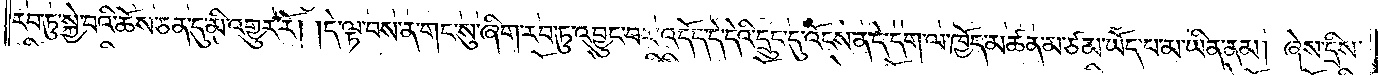རབ་ཏུ་སྐྱེ་བའི་ཆོས་ཅན་དུ་མི་འགྱུར་རོ། །དེ་ལྟ་བས་ན་གང་སུ་ཞིག་རབ་ཏུ་འབྱུང་བར་འདོད་དེ་དེའི་དྲུང་དུ་འོངས་ན་དེ་དག་ལ་ཁྱོད་མཚན་མ་ཙམ་ཡོད་པ་མ་ཡིན་ནམ། ཞེས་དྲིས་
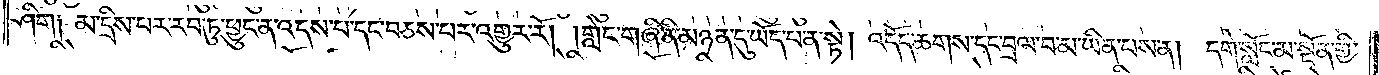ཤིག །མ་དྲིས་པར་རབ་ཏུ་ཕྱུང་ན་འདས་པ་དང་བཅས་པར་འགྱུར་རོ། །གླེང་གཞི་ནི་མཉན་དུ་ཡོད་པ་ན་སྟེ། འདོད་ཆགས་དང་བྲལ་བ་མ་ཡིན་པས་ན། དགེ་སློང་མ་སྔོན་གྱི་
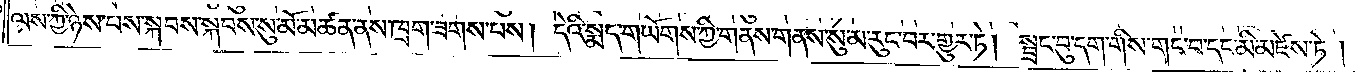ལས་ཀྱི་ཉེས་པས་སྐབས་སྐབས་སུ་མོ་མཚན་ནས་ཁྲག་ཟགས་པས། དེའི་སྨད་གཡོགས་ཀྱི་གནས་གནས་སུ་མ་རུང་བར་གྱུར་ཏེ། སྦྲང་བུ་དག་གིས་གང་བ་དང་མི་མཛེས་ཏེ།
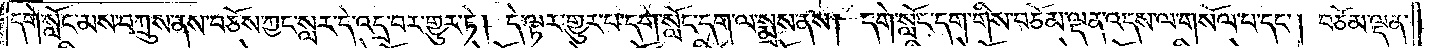དགེ་སློང་མས་བཀྲུས་ནས་བཅོས་ཀྱང་སླར་དེ་འདྲ་བར་གྱུར་ཏེ། དེ་ལྟར་གྱུར་པ་དགེ་སློང་དག་ལ་སྨྲས་ནས། དགེ་སློང་དག་གིས་བཅོམ་ལྡན་འདས་ལ་གསོལ་པ་དང༌། བཅོམ་ལྡན་
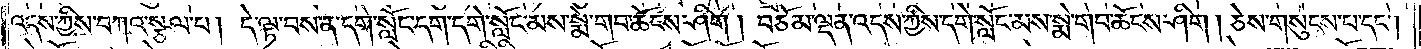འདས་ཀྱིས་བཀའ་སྩལ་པ། དེ་ལྟ་བས་ན་དགེ་སློང་དག་དགེ་སློང་མས་སྨེ་གབ་ཆོངས་ཤིག །བཅོམ་ལྡན་འདས་ཀྱིས་དགེ་སློང་མས་སྨེ་གབ་ཆོངས་ཤིག། ཅེས་གསུངས་པ་དང༌།
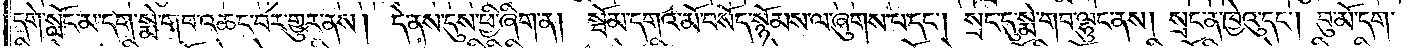དགེ་སློང་མ་དག་སྨེ་གབ་འཆང་བར་གྱུར་ནས། དེ་ནས་དུས་ཕྱི་ཞིག་ན། སྦོམ་དགའ་མོ་བསོད་སྙོམས་ལ་ཞུགས་པ་དང༌། སྲང་དུ་སྨེ་གབ་ལྷུང་ནས། སྲང་ན་ཁྱེའུ་དང༌། བུ་མོ་དག་
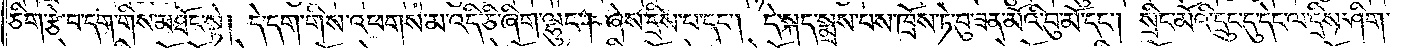ཅིག་རྩེ་བ་དག་གིས་མཐོང་སྟེ། དེ་དག་གིས་འཕགས་མ་འདི་ཅི་ཞིག་ལྷུང༌། ཞེས་དྲིས་པ་དང༌། དེ་སྐད་སྨྲས་པས་ཁྲོས་ཏེ་བུ་ཟན་མོའི་བུ་མོ་དང༌། སྲིང་མོའི་དྲུང་དུ་དེང་ལ་དྲིས་ཤིག་
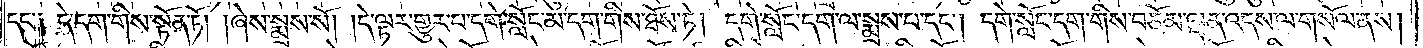དང༌༑ དེ་དག་གིས་སྟོན་ཏོ། །ཞེས་སྨྲས་སོ། །དེ་ལྟར་གྱུར་པ་དགེ་སློང་མ་དག་གིས་ཐོས་ཏེ། དགེ་སློང་དག་ལ་སྨྲས་པ་དང༌། དགེ་སློང་དག་གིས་བཅོམ་ལྡན་འདས་ལ་གསོལ་ནས།
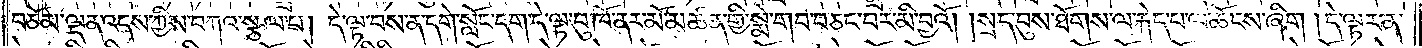བཅོམ་ལྡན་འདས་ཀྱིས་བཀའ་སྩལ་པ། དེ་ལྟ་བས་ན་དགེ་སློང་དག་དེ་ལྟ་བུ་ཁོ་ནར་མོ་མཚན་གྱི་སྨེ་གབ་བཅང་བར་མི་བྱའོ། །སྲད་བུས་ཐོགས་ལ་རྐེད་པ་ལ་ཆོངས་ཞིག །དེ་ལྟར་ན་
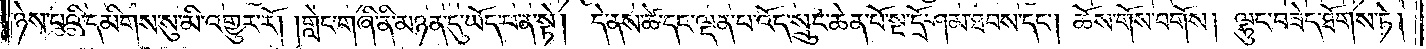ཉེས་པའི་དམིགས་སུ་མི་འགྱུར་རོ། །གླེང་གཞི་ནི་མཉན་དུ་ཡོད་པ་ན་སྟེ། དེ་ནས་ཚེ་དང་ལྡན་པ་འོད་སྲུང་ཆེན་པོ་སྔ་དྲོ་ཤམ་ཐབས་དང༌། ཆོས་གོས་བགོས། ལྷུང་བཟེད་ཐོགས་ཏེ།
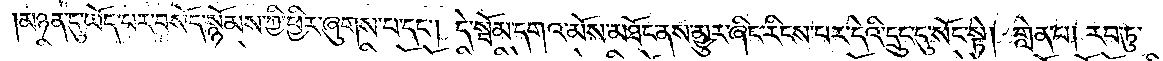མཉན་དུ་ཡོད་པར་བསོད་སྙོམས་ཀྱི་ཕྱིར་ཞུགས་པ་དང༌། དེ་སྦོམ་དགའ་མོས་མཐོང་ནས་མྱུར་ཞིང་རིངས་པར་དེའི་དྲུང་དུ་སོང་སྟེ། གླེན་པ། རབ་ཏུ་
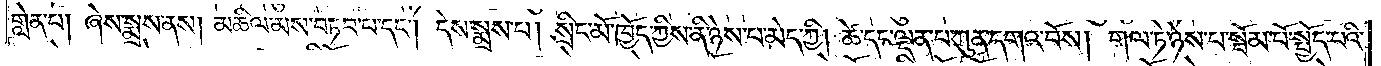གླེན་པ། ཞེས་སྨྲས་ནས། མཆིལ་མས་བཏབ་པ་དང༌། དེས་སྨྲས་པ། སྲིང་མོ་ཁྱོད་ཀྱིས་ནི་ཉེས་པ་མེད་ཀྱི། ཚེ་དང་ལྡན་པ་ཀུན་དགའ་བོས། གལ་ཏེ་ཉེས་པ་སྦོམ་པོ་སྤྱོད་པའི་
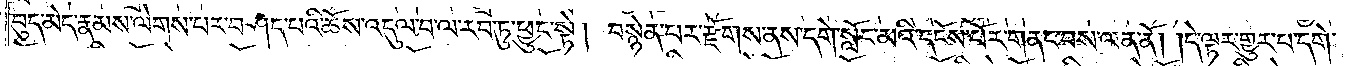བུད་མེད་རྣམས་ལེགས་པར་བཤད་པའི་ཆོས་འདུལ་བ་ལ་རབ་ཏུ་ཕྱུང་སྟེ། བསྙེན་པར་རྫོགས་ནས་དགེ་སློང་མའི་དངོས་པོར་གནང་བས་ལན་ནོ། །དེ་ལྟར་གྱུར་པ་དགེ་
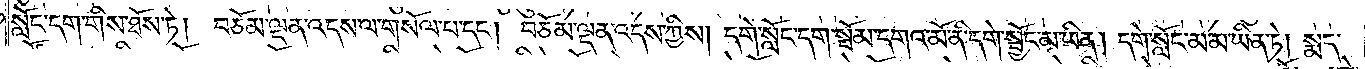སློང་དག་གིས་ཐོས་ཏེ། བཅོམ་ལྡན་འདས་ལ་གསོལ་པ་དང༌། བཅོམ་ལྡན་འདས་ཀྱིས། དགེ་སློང་དག་སྦོམ་དགའ་མོ་ནི་དགེ་སྦྱོང་མ་ཡིན། དགེ་སློང་མ་མ་ཡིན་ཏེ། སྨད་
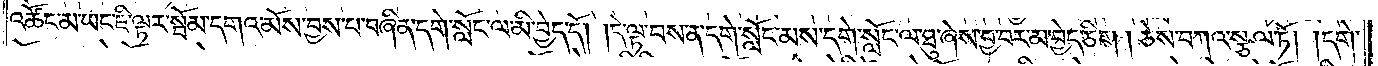འཚོང་མ་ཡང་ཇི་ལྟར་སྦོམ་དགའ་མོས་བྱས་པ་བཞིན་དགེ་སློང་ལ་མི་བྱེད་དོ། །དེ་ལྟ་བས་ན་དགེ་སློང་མས་དགེ་སློང་ལ་ཐུ་ཞེས་བྱ་བར་མ་བྱེད་ཅིག །ཅེས་བཀའ་སྩལ་ཏོ། །དགེ་
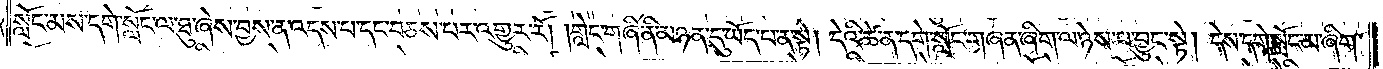སློང་མས་དགེ་སློང་ལ་ཐུ་ཞེས་བྱས་ན་འདས་པ་དང་བཅས་པར་འགྱུར་རོ། །གླེང་གཞི་ནི་མཉན་དུ་ཡོད་པ་ན་སྟེ། དེའི་ཚེ་ན་དགེ་སློང་གཞན་ཞིག་ལ་ཉེས་པ་བྱུང་སྟེ། དེས་དགེ་སློང་མ་ཞིག་
